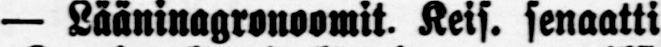— Lääninagronoomit Keis. senaatti
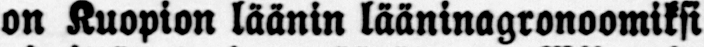on Kuopion läänin lääninagronoomiksi
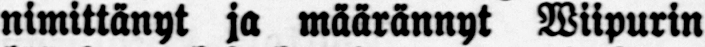nimittänyt ja määrännyt Wiipurin
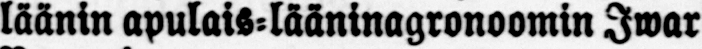läänin apulais-lääninagronoomin Iwar
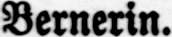Bernerin.
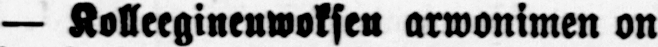— Kolleegineuwoksen arwonimen on
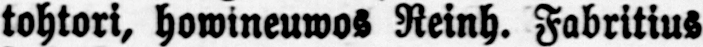tohtori, howineuwos Reinh. Fabritius
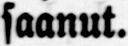saanut.
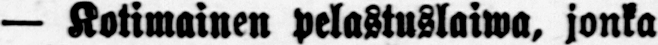— Kotimainen pelastuslaiwa, jonka
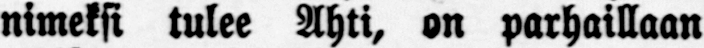nimeksi tulee Ahti, on parhaillaan
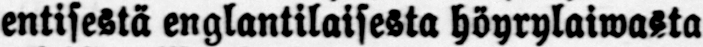entisestä englantilaisesta höyrylaiwasta
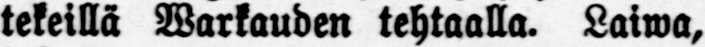tekeillä Warkauden tehtaalla. Laiwa,
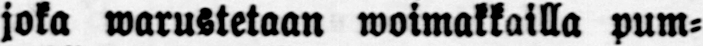joka warustetaan woimakkailla pum-
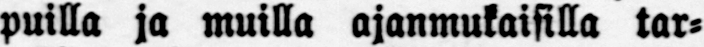puilla ja muilla ajanmukaisilla tar-
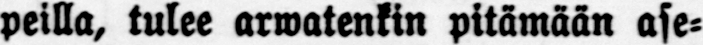peilla, tulee arwatenkin pitämään ase-
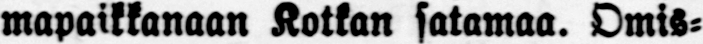mapaikkanaan Kotkan satamaa. Omis-
